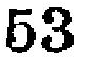53
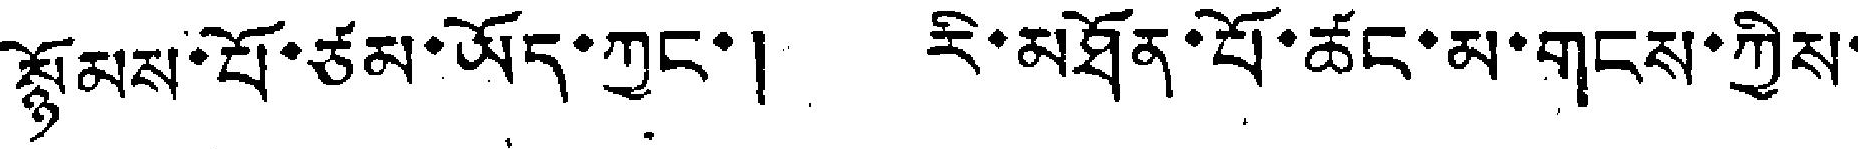སྙོམས་པོ་ཙམ་ཡོད་ཀྱང་། རི་མཐོན་པོ་ཚང་མ་གངས་ཀྱིས་
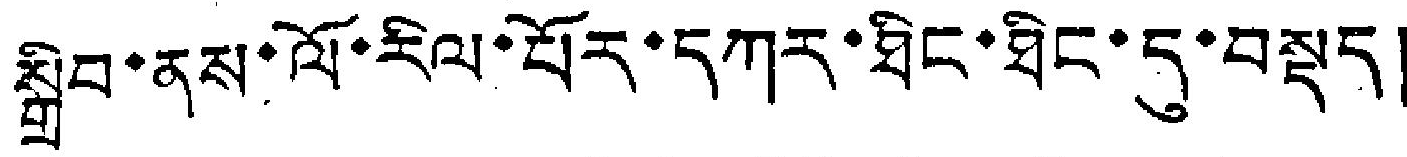སྒྲིབ་ནས་ལོ་རིལ་པོར་དཀར་ཐིང་ཐིང་དུ་བསྡད།
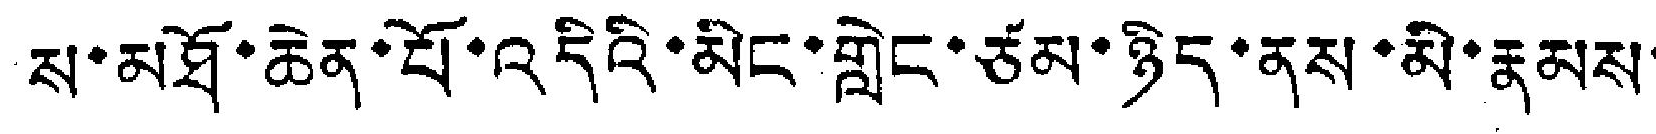ས་མཐོ་ཆེན་པོ་འདིའི་མིང་གླེང་ཙམ་ཉིད་ནས་མི་རྣམས་
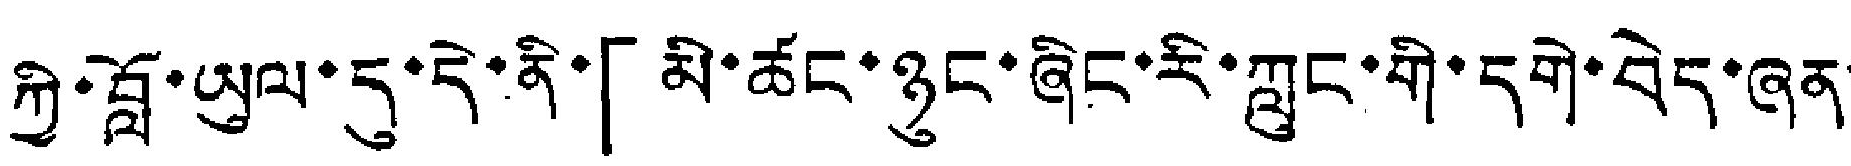ཀྱི་བློ་ཡུལ་དུ་དེ་ནི་「མི་ཚང་ཉུང་ཞིང་རི་ཀླུང་གི་དགེ་བེད་ཞན་
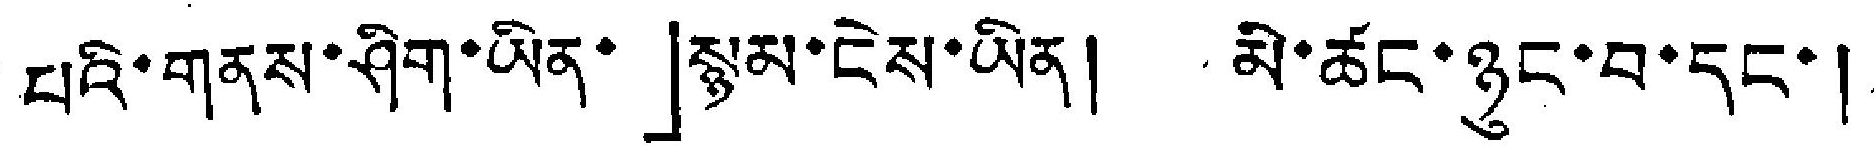པའི་གནས་ཤིག་ཡིན་」སྙམ་ངེས་ཡིན། མི་ཚང་ཉུང་བ་དང་།
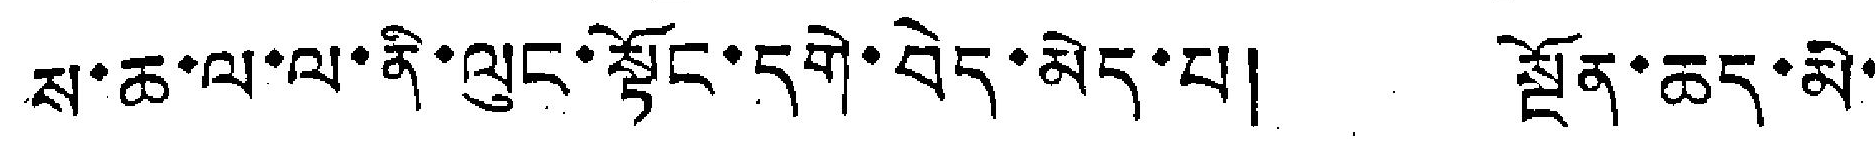སུ་ཆ་ལ་ལ་ནི་ལུང་སྟོང་དགེ་བེད་མེད་པ། སྔོན་ཆད་མི་
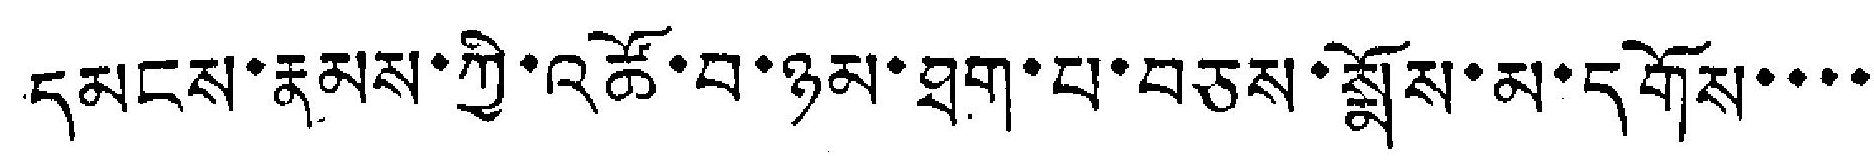དམངས་རྣམས་ཀྱི་འཚོ་བ་ཉམ་ཐག་པ་བཅས་སྨོས་མ་དགོས་་་་
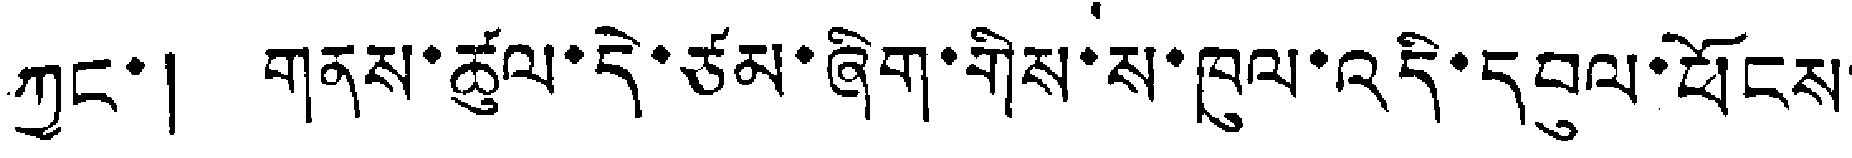ཀྱང་། གནས་ཚུལ་དེ་ཙམ་ཞིག་གིས་ས་ཁུལ་འདི་དབུལ་ཕོངས་
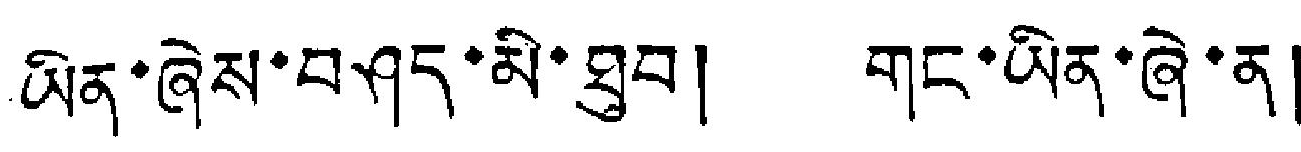ཡིན་ཞེས་བཤད་མི་ཐུབ། གང་ཡིན་ཞེ་ན།
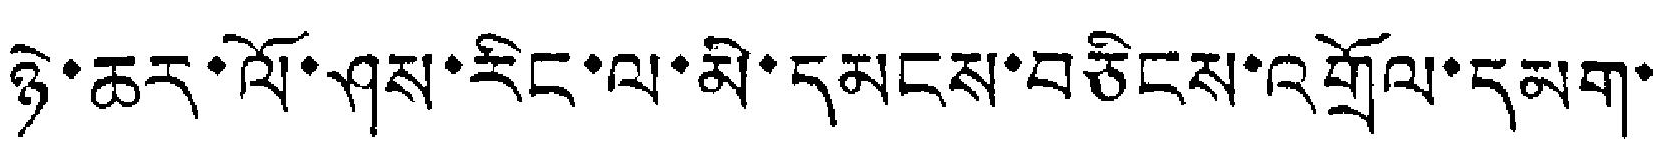ཉེ་ཆར་ལོ་ཤས་རིང་ལ་མི་དམངས་བཅིངས་འགྲོལ་དམག་
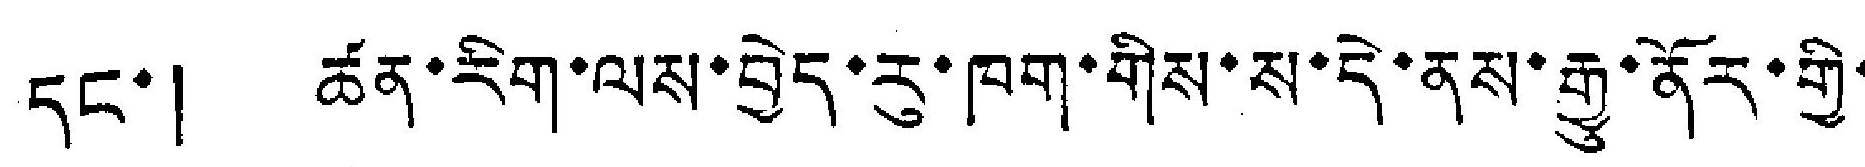དང་། ཚན་རིག་ལས་བྱེད་རུ་ཁག་གིས་ས་དེ་ནས་རྒྱུ་ནོར་གྱི་
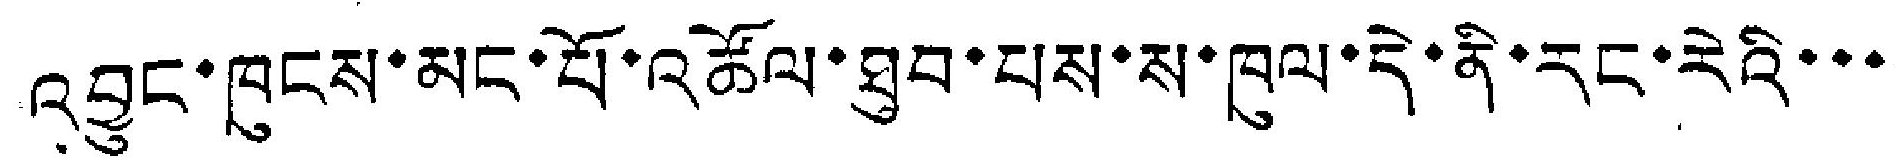འབྱུང་ཁུངས་མང་པོ་འཚོལ་ཐུབ་པས་ས་ཁུལ་དེ་ནི་རང་རེའི་་་
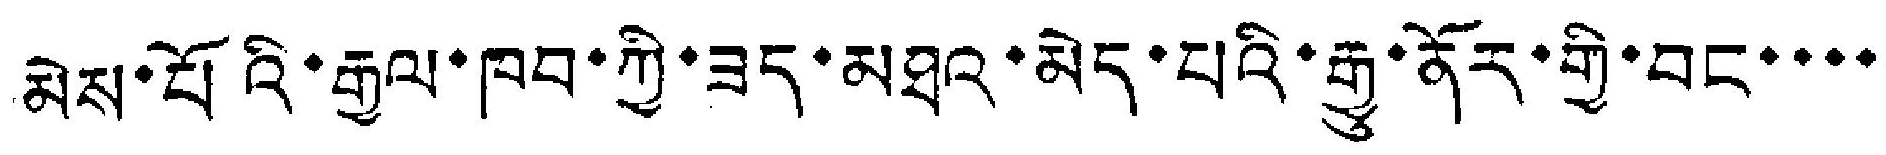མེས་པོའི་རྒྱལ་ཁབ་ཀྱི་ཟད་མཐའ་མེད་པའི་རྒྱུ་ནོར་གྱི་བང་་་་
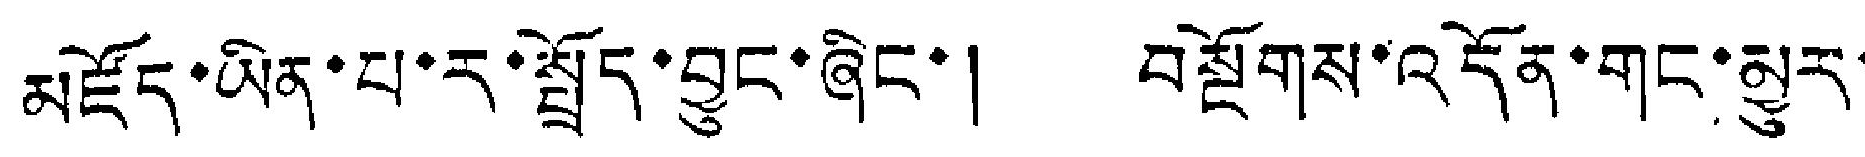མཛོད་ཡིན་པ་ར་སྤྲོད་བྱུང་ཞིང་། བསྔོགས་འདོན་གང་མྱུར་
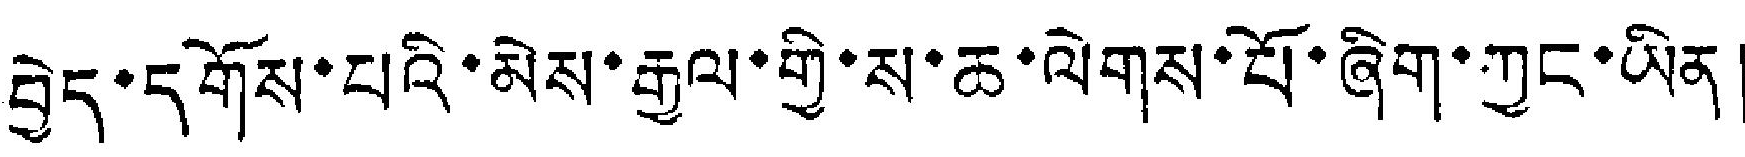བྱེད་དགོས་པའི་མེས་རྒྱལ་གྱི་ས་ཆ་ལེགས་པོ་ཞིག་ཀྱང་ཡིན།
